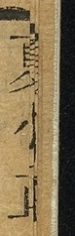夏小正
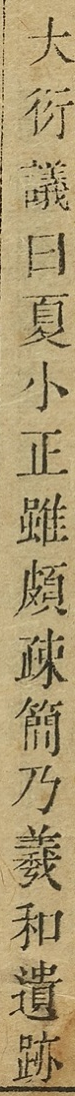大衍議曰夏小正雖頗疎簡乃羲和遺跡
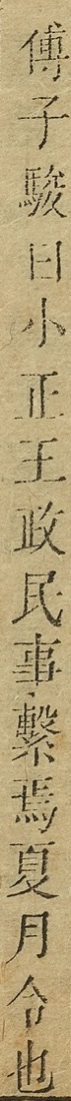傳子駿曰小正王政民事繫焉夏月令也
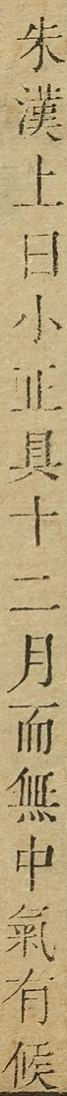朱漢上曰小正具十二月而無中氣有候
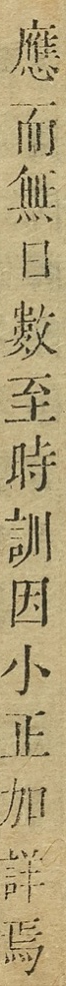應而無日數至時訓因小正加詳焉
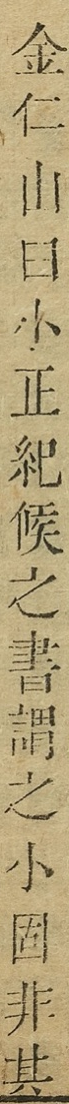金仁山曰小正紀候之書謂之小固非其
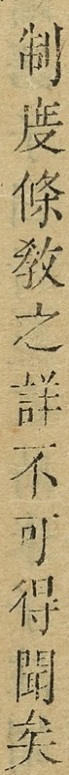制度條教之詳不可得聞矣
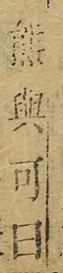熊與可曰
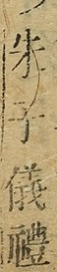朱子儀禮
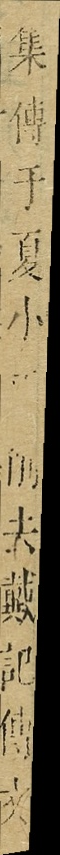集傳于夏小正削去戴記傳文
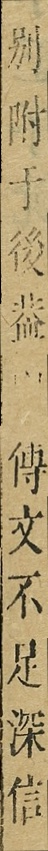別附于後蓋以傳文不足深信
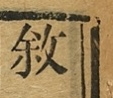敘
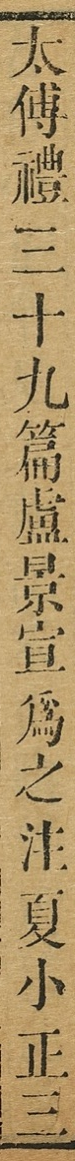太傅禮三十九篇盧景宜為之注夏小正三
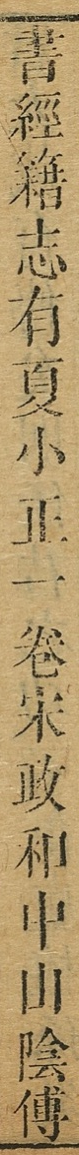書經籍志有夏小正一卷宋政和中山陰傅
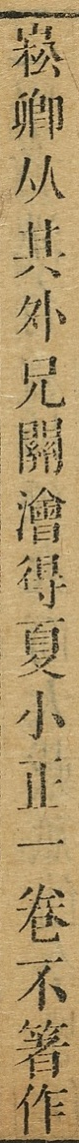崧卿从其外兄關澮得夏小正一卷不著作
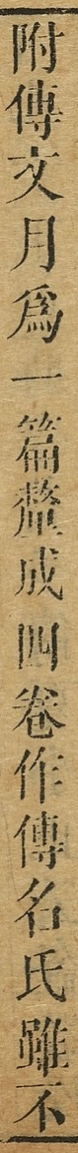附傳文月為一篇釐成四卷作傳名氏雖不
